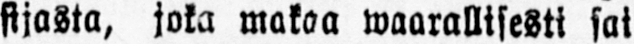sijasta, joka makaa waarallisesti sai
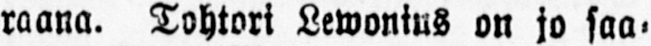raana. Tohtori Lewonius on jo saa-
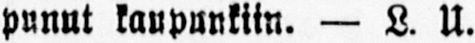punut kaupunkiin. — L. U.
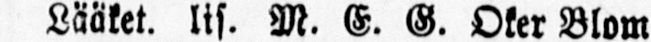Lääket. lis. M. E. G. Oker Blom
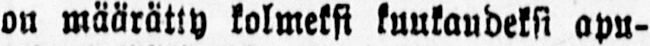on määrätty kolmeksi kuukaudeksi apu-
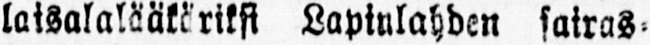laisalalääkäriksi Lapinlahden sairas-
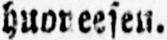huoneesen.
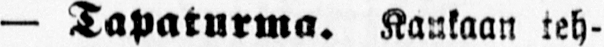— Tapaturma. Kaukaan teh-
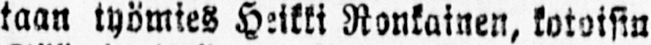taan työmies Heikki Ronkainen, kotoisin
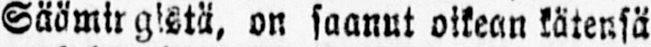Säämingistä, on saanut oikean kätensä
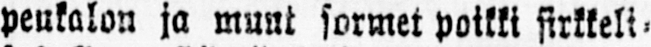peukalon ja muut sormet poikki sirkkeli-
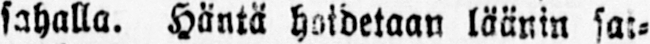sahalla. Häntä hoidetaan läänin sai-
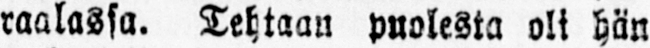raalassa. Tehtaan puolesta oli hän
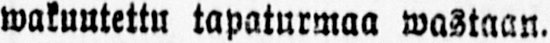wakuutettu tapaturmaa wastaan.
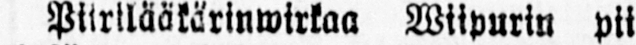Piirilääkärinwirkaa Wiipurin pii
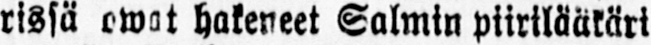rissä owat hakeneet Salmin piirilääkäri
